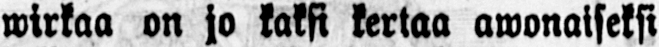wirkaa on jo kaksi kertaa awonaiseksi
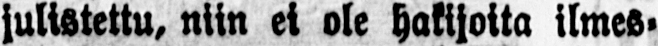julistettu, niin ei ole hakijoita ilmes-
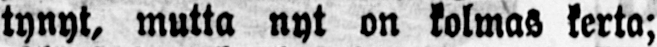tynyt, mutta nyt on kolmas kerta;
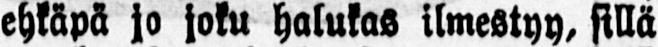ehkäpä jo joku halukas ilmestyy, sillä
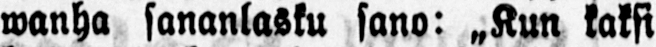wanha sananlasku sano: „Kun kaksi
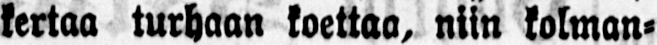kertaa turhaan koettaa, niin kolman-
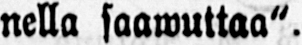nella saawuttaa".
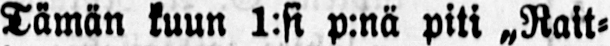Tämän kuun 1:si p:nä piti „Rait-
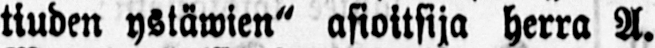tiuden ystäwien" asioitsija herra A.
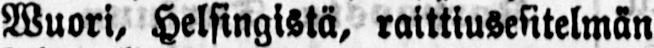Wuori, Helsingistä, raittiusesitelmän
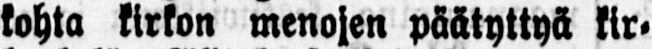kohta kirkon menojen päätyttyä kir-
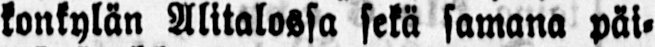konkylän Alitalossa sekä samana päi-
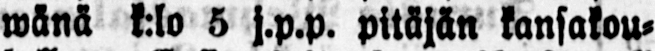wänä k:lo 5 j.p.p. pitäjän kansakou-
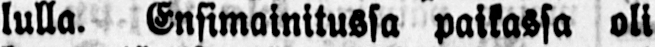lulla. Ensimainitussa paikassa oli
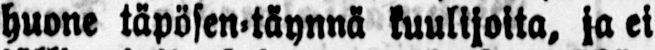huone täpösen-täynnä kuulijoita, ja ei
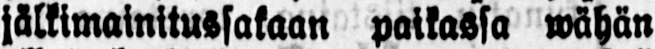jälkimainttussakaan paikassa wähän
